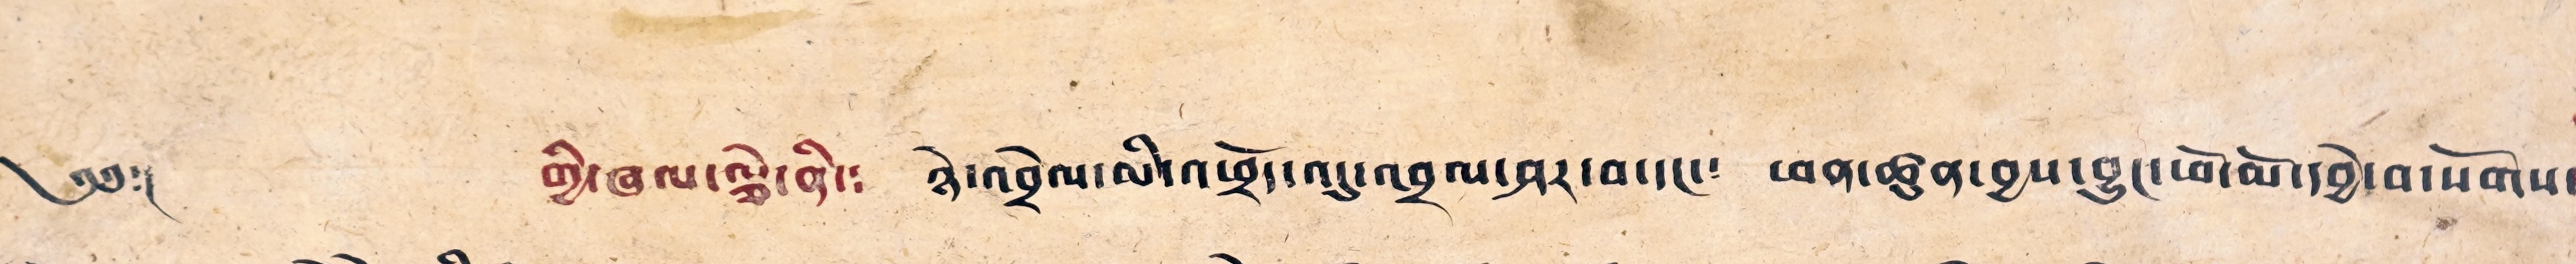༄༅།། གྱི་ཞལ་ལྕེ་ནི་༴ ཉེ་འབྲེལ་མི་འཕྲོད་འདུ་འབྲལ་ཤར་བ་དང་༴ ཕན་ཚན་བྱས་བྱུང་ཕོ་མོ་དབྱེ་བ་སོགས༴
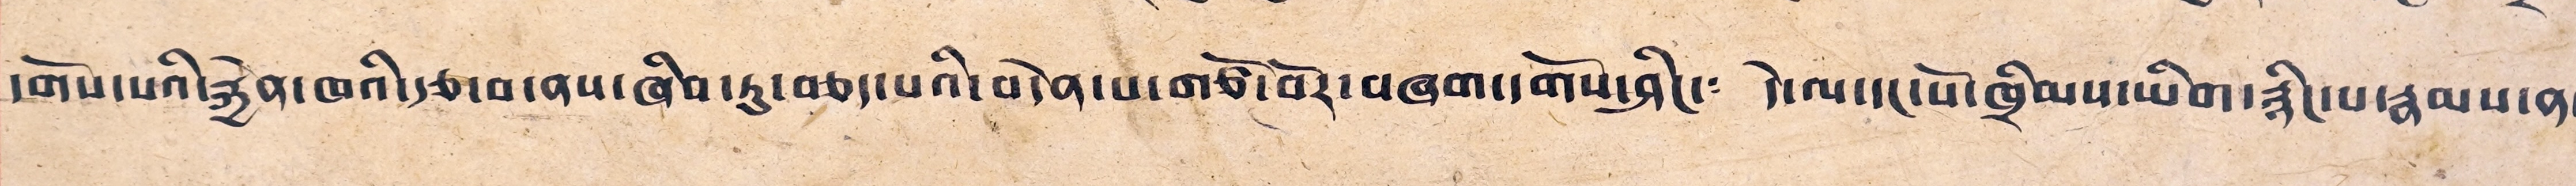དགོས་པའི་རྐྱེན་ཁའི་རྩ་བ་ནས་ཞིབ་ཏུ་བཅད་པའི་བདེན་པ་གཙོ་བོར་བཞག་དགོས་ཤིང་༴ དེ་ལ་དང་པོ་ཁྲིམས་ཡིག་རྙིང་པ་རྣམས་ན་༴
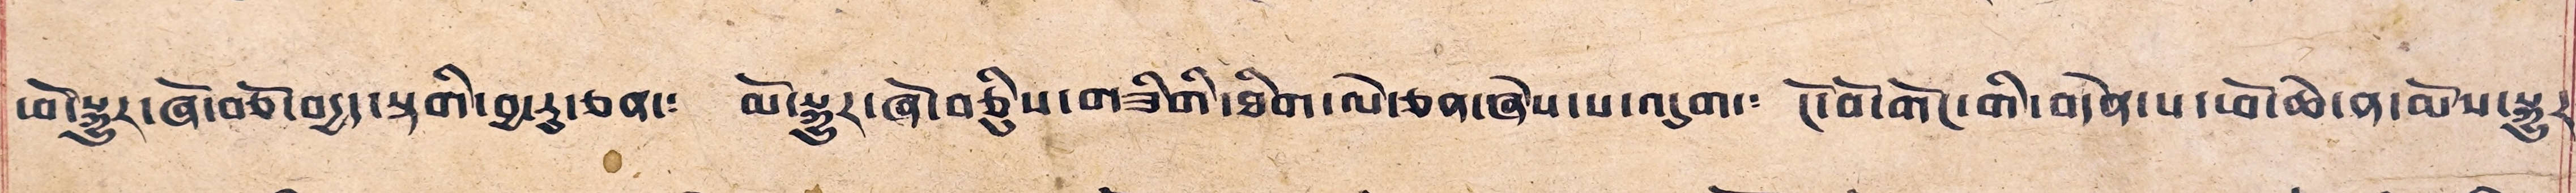ཕོ་སྒྱུར་ཞོ་བཅོ་བདྱད་སྟགི་བྱ་རུ་ཅན་༴ མོ་སྒྱུར་ཞོ་བཅིུས་གཟིགི་ཐིག་ལེ་ཅན་ཞེས་པ་འདུག་༴ ངོ་བོ་གོང་གི་བདེན་པ་ཕོ་ཆེ་ན་མོས་སྒྱུར༴
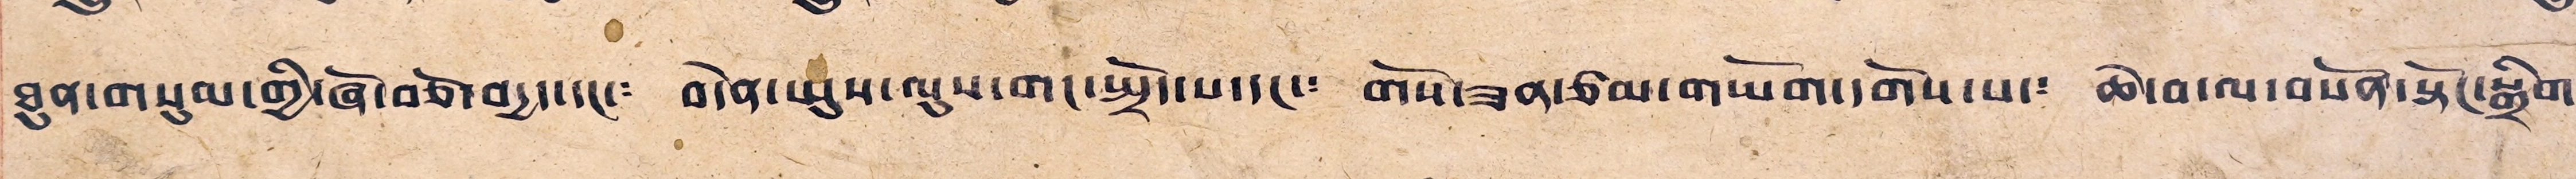ཐུན་གསུམ་གྱི་ཞོ་བཅོ་བདྱད་དང་༴ བདེན་ཡུས་ལུས་གང་སྤྲོད་པ་དང་༴ གོས་ཟན་ཙམ་གཡོག་དགོས་པ་༴ ཆེ་བ་ལ་བསོན་སྟོང་སྒྲིག་
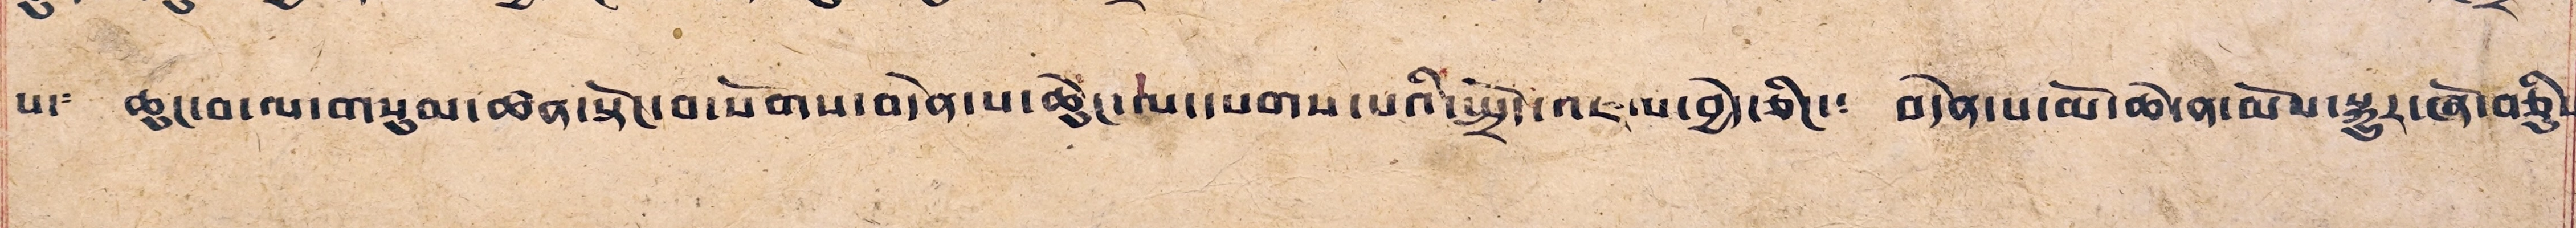པ་༴ ཆུང་བ་ལ་གསུམ་ཚན་སྟོང་བ་སོགས་བདེན་པ་ཆེ་ཆུང་ལ་དཔགས་པའི་སྤྲོད་འཇལ་བྱེད་ཅིང་༴ བདེན་པ་མོ་ཆེ་ན་མོས་སྐྱུར་ཞོ་བཅིུས༴
